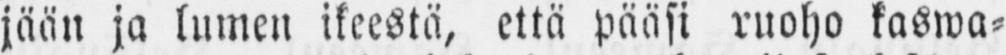jään ja lumen ikeestä, että pääsi ruoho kaswa-
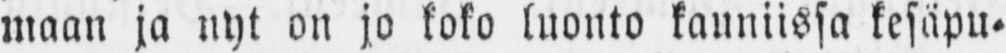maan ja nyt on jo koko luonto kauniissa kesäpu-
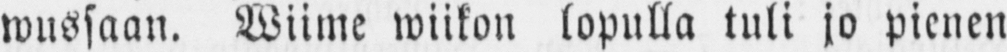wussaan. Wiime wiikon lopulla tuli jo pienen
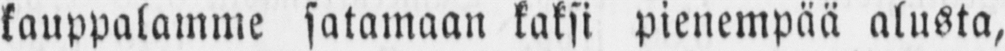kauppalamme satamaan kaksi pienempää alusta,
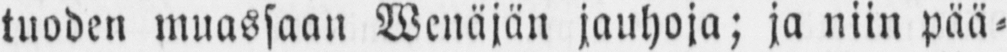tuoden muassaan Wenäjän jauhoja; ja niin pää-
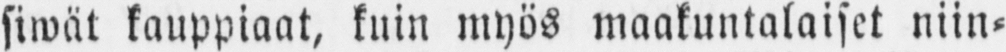siwät kauppiaat, kuin myös maakuntalaiset niin-
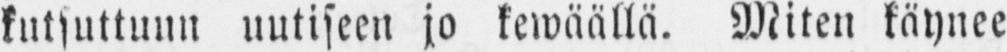kutsuttuun uutiseen jo kewäällä. Miten käynee
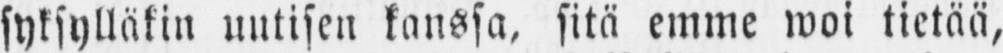syksylläkin uutisen kanssa, sitä emme woi tietää,
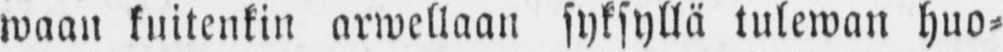waan kuitenkin arwellaan syksyllä tulewan huo-
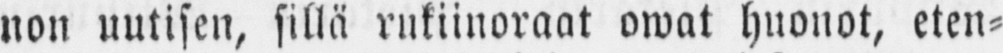non uutisen, sillä rukiinoraat owat huonot, eten-
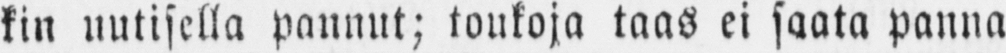kin uutisella pannut; toukoja taas ei saata panna
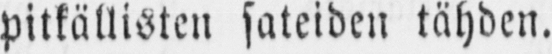pitkällisten sateiden tähden.
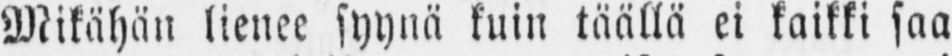Mikähän lienee syynä kuin täällä ei kaikki saa
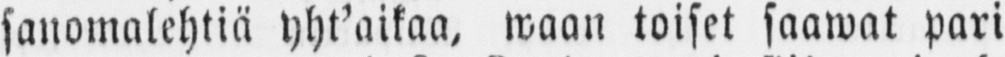sanomalehtiä yht’aikaa, waan toiset saawat pari
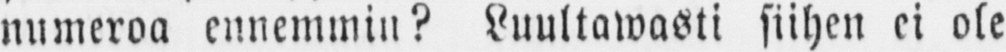numeroa ennemmin? Luultawasti siihen ei ole
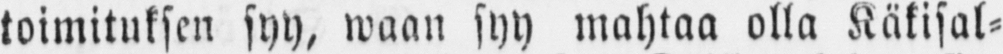toimituksen syy, waan syy mahtaa olla Käkisal-
